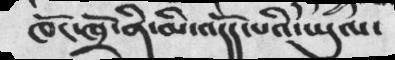ཁོང་ཁྲོ་ནི་མི་འདོད་པའི་ཡུལ་
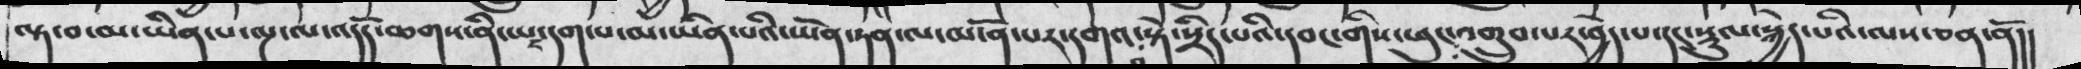ལྟ་བ་མ་ཡིན་པ་ལྔ་ལ་འདོད་ཆགས་ནི་ཡང་དག་པ་མ་ཡིན་པའི་ཡོན་ཏན་ལ་མངོན་པར་དགའ་བ་སྟེ་སྲིད་པའི་དབང་གིས་ཕུང་འགྲུབ་པར་བྱེད་པ་དང་སྡུལ་སྐྱེད་པའི་ལས་ཅན་ནོ།།
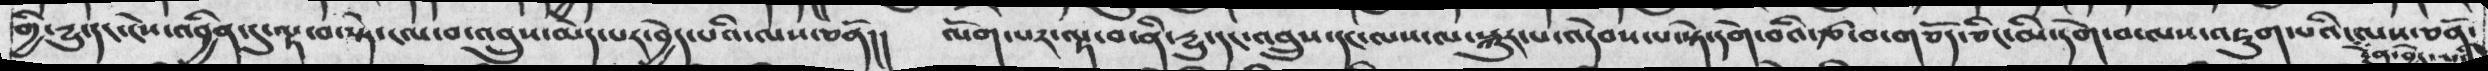གྱི་དྱུ་དང་ངེས་འབྱིན་དུ་ལྟ་བ་སྟེ་ངལ་བ་འབྲུས་མེད་པར་བྱེད་པའི་ལས་ཅནོ།།   ལོག་པར་ལྟ་བ་ནི་དྱུ་དང་འབྲུས་དང་ལས་ལ་སྐུར་པ་འདེབས་པ་སྟེ་དགེ་བའི་རྩ་བ་གཅོད་ཅིང་མི་དགེ་བ་ལས་འཇུག་པའི་རྟེན་བྱེད་པའི་ལས་ཅནོ།
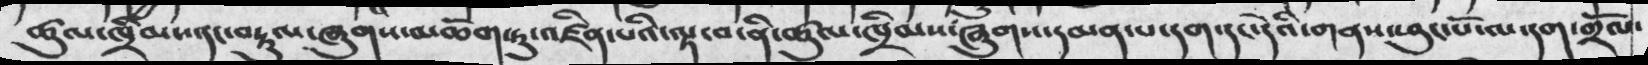ཚུལ་ཁྲིམས་དང་བརྟུལ་ཞུགས་མཆོག་ཏུ་འཛིན་པའི་ལྟ་བ་ནི་ཚུལ་ཁྲིམས་ཞུགས་དམན་པ་དག་དང་དེའི་གནས་ཕུང་པོ་ལ་དག་གྲོལ་
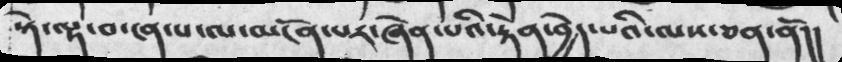སྟེ་ལྟ་བ་ངན་པ་ལ་མངོན་པར་ཞེན་པའི་རྟེན་བྱེད་པའི་ལས་ཅན་ནོ།།
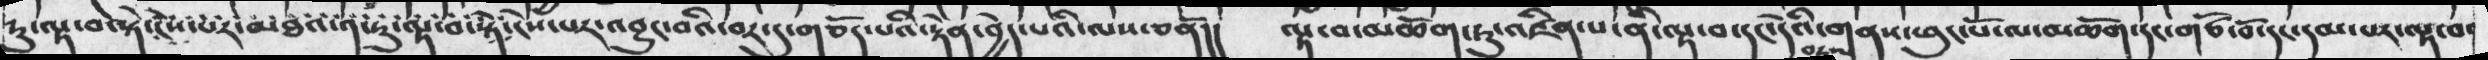ཏུ་ལྟ་བ་སྟེ་ངེས་པར་མཐའ་༡་ཏུ་ལྟ་བ་སྟེ་ངེས་པར་འབྱུང་བའི་བར་དུ་གཅོད་པའི་རྟེན་བྱེད་པའི་ལས་ཅནོ།།   ལྟ་བ་མཆོག་ཏུ་འཛིན་པ་ནི་ལྟ་བ་དང་དེའི་གནས་ཕུང་པོ་ལ་མཆོག་དང་གཙོ་བོ་དང་དམ་པར་ལྟ་བ་
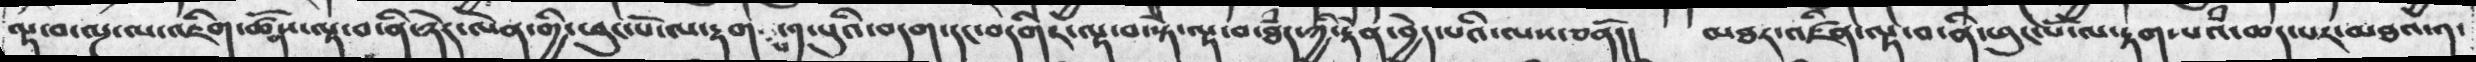ལྟ་བ་ལྔ་ལ་འཇིག་ཚོགས་ལྟ་བ་ནི་ཉེར་ལེན་གྱི་ཕུང་པོ་ལ་རྟག་པ་༡་པུའི་བདག་དང་བདགིར་ལྟ་བ་སྟེ་ལྟ་བ་ཐཾད་ཀྱི་རྟེན་བྱེད་པའི་ལས་ཅནོ།།  མཐར་འཛིན་ལྟ་བ་ནི་ཕུང་པོ་ལ་རྟག་པའཾ་ཆད་པར་མཐའ་༡་
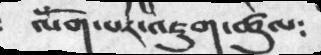ལོཾག་པར་འཇུག་ཚུལ༴
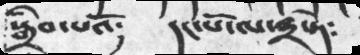སྒྲིབ་པའོ༴   དང་པོ་ལ་༣དཏེ༴
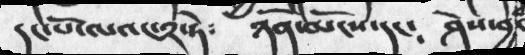དང་པོ་ལའང་༢་ཏེ༴   ཉོན་མོངས་དང    ཤེས་བྱའི་
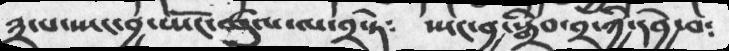༣་པ་སྤང་བྱ་སྤོང་ཚུལ་ལ་༢་ཏེ༴   སྤང་བྱ་སྒྲིབ་༢་ཀྱི་དབྱེ་བ༴
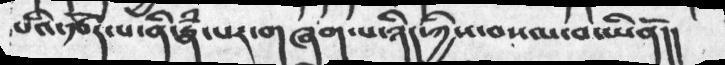པའི་རྩོད་པ་ནི་རྣཾ་པར་གཞག་པ་ཉིད་ཀྱིས་བསལ་བ་ཡིནོ།།
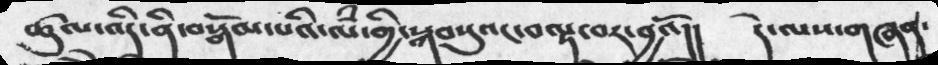ཚུལ་འདི་ནི་བསྒོམ་པའི་ལཾ་གྱི་སྐབསུའང་བལྟ་བར་བྱའོ།།   དེ་ལས་གཞན་
